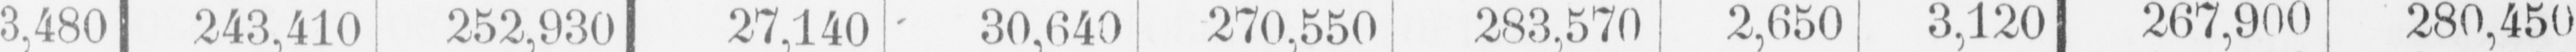3,480 243,410 252,930 27,140 30,640 270,550 283,570 2,650 3,120 267,900 280,450
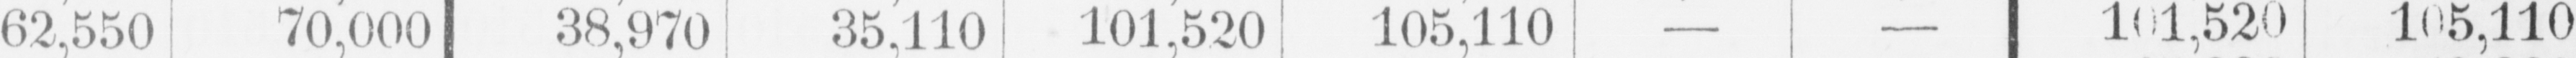— 62,550 70,000 38,970 35,110 101,520 105,110 — — 101,520 105,110
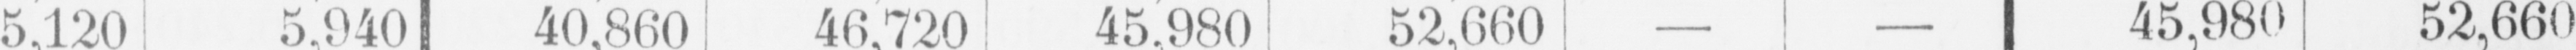— 5,120 5,940 40,860 46,720 45,980 52,660 — — 45,980 52,660
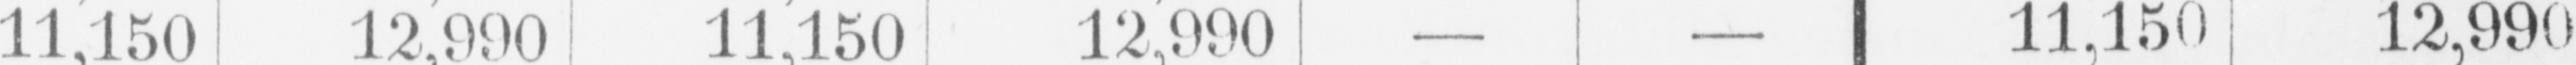— — — 11,150 12,990 11,150 12,990 — — 11,150 12,990
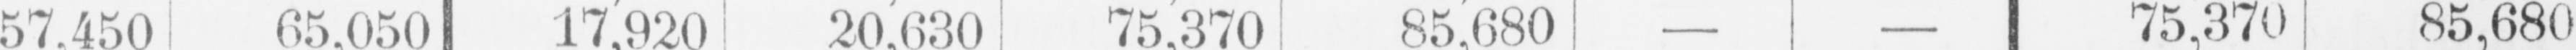— 57,450 65,050 17,920 20,630 75,370 85,680 — — 75,370 85,680
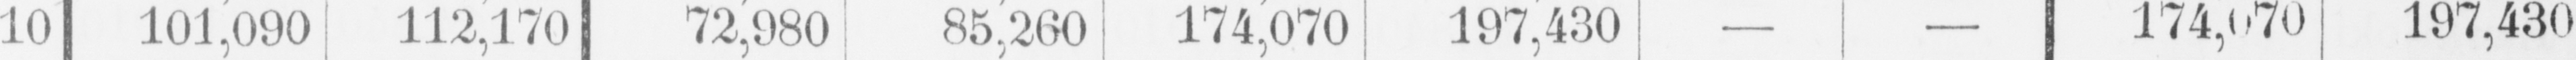10 101,090 112,170 72,980 85,260 174,070 197,430 — — 174, 070 197,430
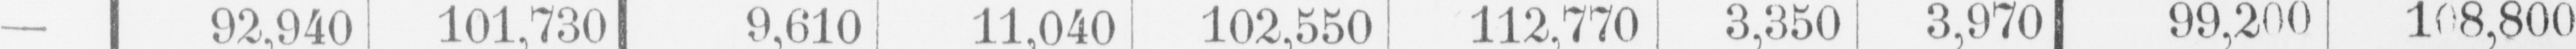— 92,940 101,730 9,610 11,040 102,550 112,770 3,350 3,970 99,200 108,800
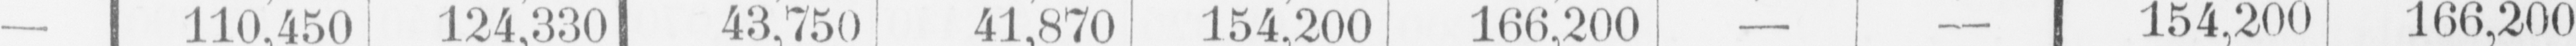— 110,450 124,330 43,750 41,870 154,200 166,200 — — 154,200 166,200
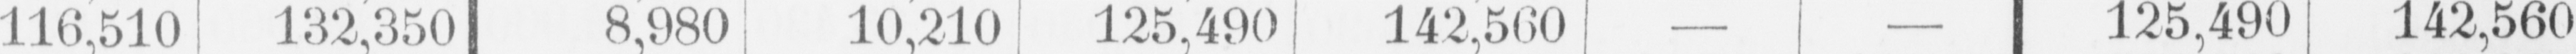— 116,510 132,350 8,980 10,210 125,490 142,560 — — 125,490 142,560
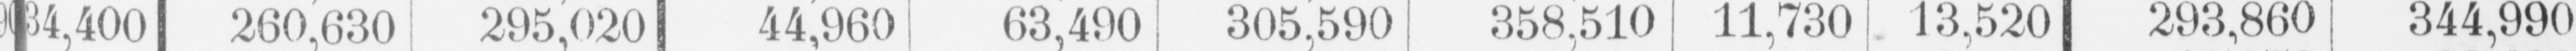34,400 260,630 295,020 44,960 63,490 305,590 358,510 11,730 13,520 293,860 344,990
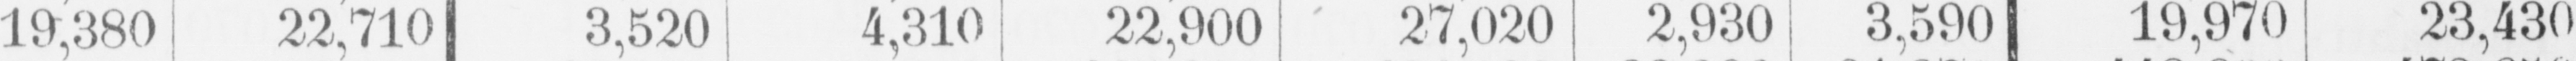— 19,380 22,710 3,520 4,310 22,900 27,020 2,930 3,590 19,970 23,430
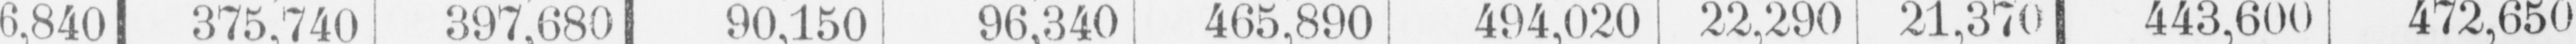6,840 375,740 397,680 90,150 96,340 465,890 494,020 22,290 21,370 443,600 472,650
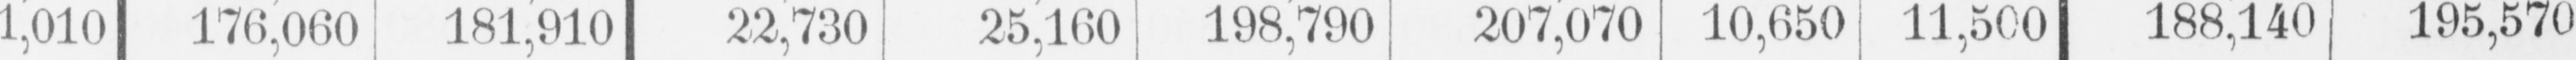1,010 176,060 181,910 22,730 25,160 198,790 207,070 10,650 11,500 188,140 195,570
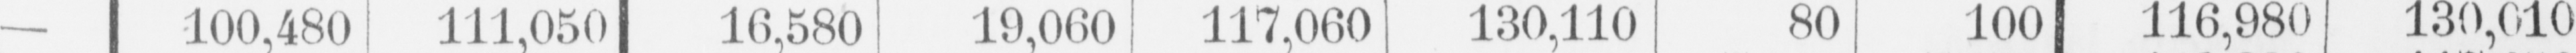— 100,480 111,050 16,580 19,060 117,060 130,110 80 100 116,980 130,010
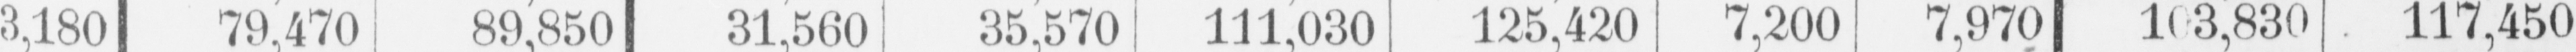3,180 79,470 89,850 31,560 35,570 111,030 125,420 7,200 7,970 103,830 117,450
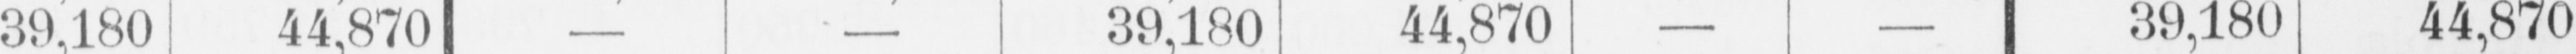— 39,180 44,870 — — 39,180 44,870 — — 39,180 44,870
